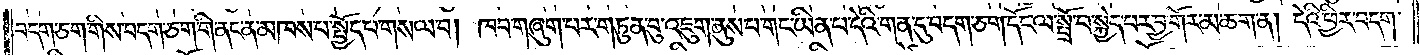བདག་ཅག་གིས་བདག་ཅག་གི་ནང་ན་མཁས་པ་སྤྱོད་པ་གསལ་བ། ཁབ་གཞུག་པར་གཏུན་བུ་འཇུག་ནུས་པ་གང་ཡིན་པ་དེའི་གན་དུ་བདག་ཅག་དོང་ལ་སྤྲོ་བ་སྐྱེད་པར་བྱ་གོར་མ་ཆག་ན། དེའི་ཕྱིར་བདག་
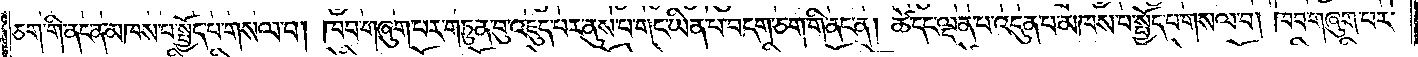ཅག་གི་ནང་ན་མཁས་པ་སྤྱོད་པ་གསལ་བ། ཁབ་གཞུག་པར་གཏུན་བུ་འཇུད་པར་ནུས་པ་གང་ཡིན་པ་བདག་ཅག་གི་ནང་ན། ཚེ་དང་ལྡན་པ་འདུན་པ་མཁས་པ་སྤྱོད་པ་གསལ་བ། ཁབ་གཞུག་པར་
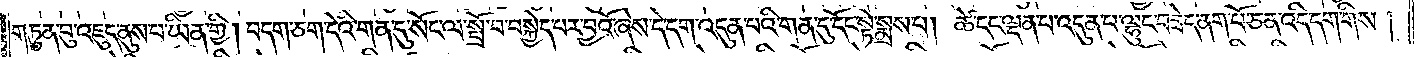གཏུན་བུ་འཇུད་ནུས་པ་ཡིན་གྱི། བདག་ཅག་དེའི་གན་དུ་སོང་ལ་སྤྲོ་བ་བསྐྱེད་པར་བྱའོ་ཞེས་དེ་དག་འདུན་པའི་གན་དུ་དོང་སྟེ་སྨྲས་པ། ཚེ་དང་ལྡན་པ་འདུན་པ་ལྷུང་བཟེད་ནག་པོ་ཅན་འདི་དག་གིས།
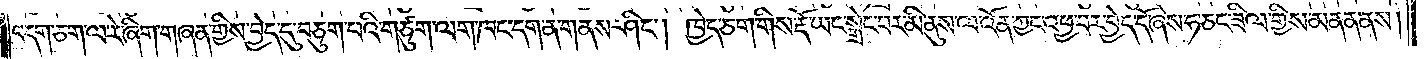བདག་ཅག་ལ་རེ་ཞིག་གཞན་གྱིས་བྱེད་དུ་བཅུག་པའི་གཙུག་ལག་ཁང་དག་ན་གནས་ཤིང༌། ཁྱེད་ཅག་གིས་རྡོ་ཡང་སྒྲེང་བར་མི་ནུས་ལ་འོན་ཀྱང་འཕྱ་བར་བྱེད་དོ་ཞེས་ཧ་ཅང་ཟིལ་གྱིས་མནན་ནས།
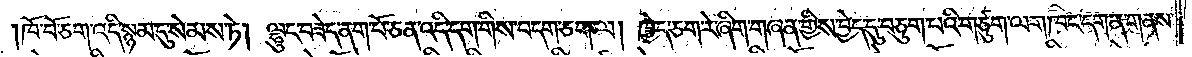ཁོ་བོ་ཅག་འདི་སྙམ་དུ་སེམས་ཏེ། ལྷུང་བཟེད་ནག་པོ་ཅན་འདི་དག་གིས་བདག་ཅག་ལ། ཁྱེད་ཅག་རེ་ཞིག་གཞན་གྱིས་བྱེད་དུ་བཅུག་པའི་གཙུག་ལག་ཁང་དག་ན་གནས་
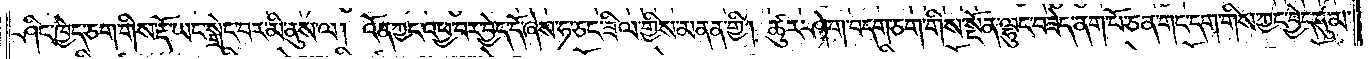ཤིང་ཁྱེད་ཅག་གིས་རྡོ་ཡང་སྒྲེང་བར་མི་ནུས་ལ། འོན་ཀྱང་འཕྱ་བར་བྱེད་དོ་ཞེས་ཧ་ཅང་ཟིལ་གྱིས་མནན་གྱི། ཚུར་ཤེག་བདག་ཅག་གིས་སྔོན་ལྷུང་བཟེད་ནག་པོ་ཅན་གང་དག་གིས་ཀྱང་བྱེད་དུ་མ་
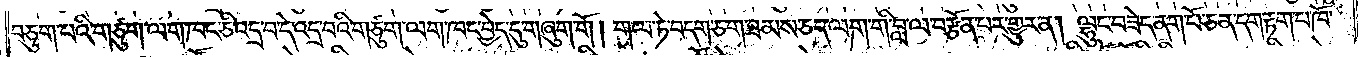བཅུག་པའི་གཙུག་ལག་ཁང་ཅི་འདྲ་བ་དེ་འདྲ་བའི་གཙུག་ལག་ཁང་བྱེད་དུ་གཞུག་གོ། གལ་ཏེ་བདག་ཅག་ཐམས་ཅད་ལག་གི་བླ་ལ་བརྩོན་པར་གྱུར་ན། ལྷུང་བཟེད་ནག་པོ་ཅན་དག་རྟག་པ་ཁོ་
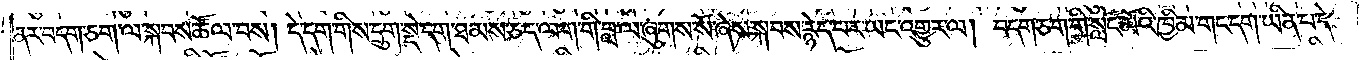ནར་བདག་ཅག་ལ་སྐབས་ཚོལ་བས། དེ་དག་གིས་དྲུག་སྡེ་དག་ཐམས་ཅད་ལག་གི་བླ་ལ་ཞུགས་སོ་ཞེས་སྐབས་རྙེད་པར་ཡང་འགྱུར་ལ། བདག་ཅག་གི་སློང་མོའི་ཁྱིམ་གང་དག་ཡིན་པ་དེ་
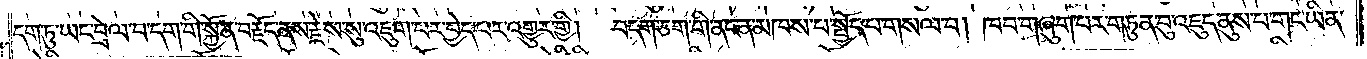དག་ཏུ་ཡང་བྲེལ་བ་དག་གི་སྐྱོན་བརྗོད་ནས་རྗེས་སུ་འཇུག་པར་བྱེད་པར་འགྱུར་གྱི། བདག་ཅག་གི་ནང་ན་མཁས་པ་སྤྱོད་པ་གསལ་བ། ཁབ་གཞུག་པར་གཏུན་བུ་འཇུད་ནུས་པ་གང་ཡིན་
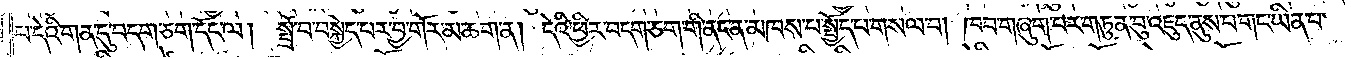པ་དེའི་གན་དུ་བདག་ཅག་དོང་ལ། སྤྲོ་བ་བསྐྱེད་པར་བྱ་གོར་མ་ཆག་ན། དེའི་ཕྱིར་བདག་ཅག་གི་ནང་ན་མཁས་པ་སྤྱོད་པ་གསལ་བ། ཁབ་གཞུག་པར་གཏུན་བུ་འཇུད་ནུས་པ་གང་ཡིན་པ་
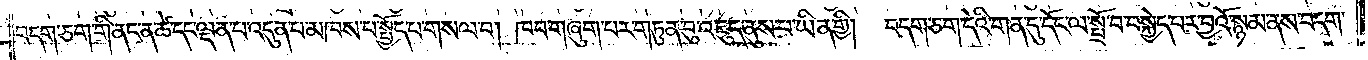བདག་ཅག་གི་ནང་ན་ཚེ་དང་ལྡན་པ་འདུན་པ་མཁས་པ་སྤྱོད་པ་གསལ་བ། ཁབ་གཞུག་པར་གཏུན་བུ་འཇུད་ནུས་པ་ཡིན་གྱི། བདག་ཅག་དེའི་གན་དུ་དོང་ལ་སྤྲོ་བ་བསྐྱེད་པར་བྱའོ་སྙམ་ནས་བདག་
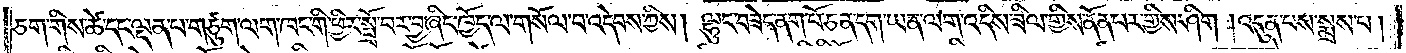ཅག་གིས་ཚེ་དང་ལྡན་པ་གཙུག་ལག་ཁང་གི་ཕྱིར་སྤྲོ་བར་བྱ་ཞིང་ཁྱོད་ལ་གསོལ་བ་འདེབས་ཀྱིས། ལྷུང་བཟེད་ནག་པོ་ཅན་དག་ཡན་ལག་འདིས་ཟིལ་གྱིས་ནོན་པར་གྱིས་ཤིག །འདུན་པས་སྨྲས་པ།
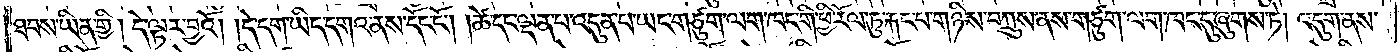ཐབས་ཡིན་གྱི། དེ་ལྟར་བྱའོ། །དེ་དག་ཡིད་དགའ་ནས་དོང་ངོ༌། །ཚེ་དང་ལྡན་པ་འདུན་པ་ཡང་གཙུག་ལག་ཁང་གི་ཕྱི་རོལ་ཏུ་རྐང་པ་གཉིས་བཀྲུས་ནས་གཙུག་ལག་ཁང་དུ་ཞུགས་ཏེ། འདུག་ནས་
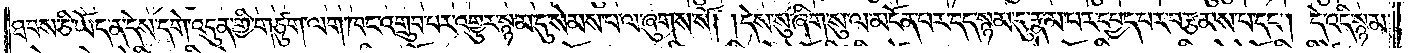ཐབས་ཅི་ཡོད་ན་དེས་དགེ་འདུན་གྱི་གཙུག་ལག་ཁང་འགྲུབ་པར་འགྱུར་སྙམ་དུ་སེམས་པ་ལ་ཞུགས་སོ། །དེས་སུ་ཞིག་སུ་ལ་མངོན་པར་དད་སྙམ་དུ་རྣམ་པར་དཔྱད་པར་བརྩམས་པ་དང༌། དེ་འདི་སྙམ་
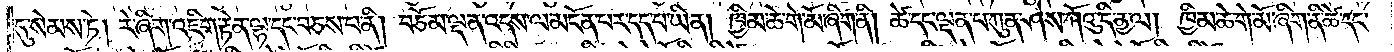དུ་སེམས་ཏེ། རེ་ཞིག་འཇིག་རྟེན་ལྷ་དང་བཅས་པ་ནི། བཅོམ་ལྡན་འདས་ལ་མངོན་པར་དད་པ་ཡིན། ཁྱིམ་ཆེ་གེ་མོ་ཞིག་ནི། ཚེ་དང་ལྡན་པ་ཀུན་ཤེས་ཀོའུ་དི་ནྱ་ལ། ཁྱིམ་ཆེ་གེ་མོ་ཞིག་ནི་ཚེ་དང་
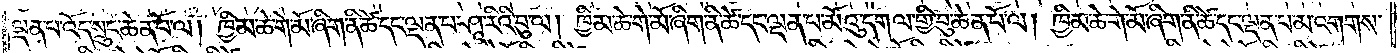ལྡན་པ་འོད་སྲུང་ཆེན་པོ་ལ། ཁྱིམ་ཆེ་གེ་མོ་ཞིག་ནི་ཚེ་དང་ལྡན་པ་ཤཱ་རིའི་བུ་ལ། ཁྱིམ་ཆེ་གེ་མོ་ཞིག་ནི་ཚེ་དང་ལྡན་པ་མོའུ་དག་ལ་གྱི་བུ་ཆེན་པོ་ལ། ཁྱིམ་ཆེ་གེ་མོ་ཞིག་ནི་ཚེ་དང་ལྡན་པ་མ་འགགས་
